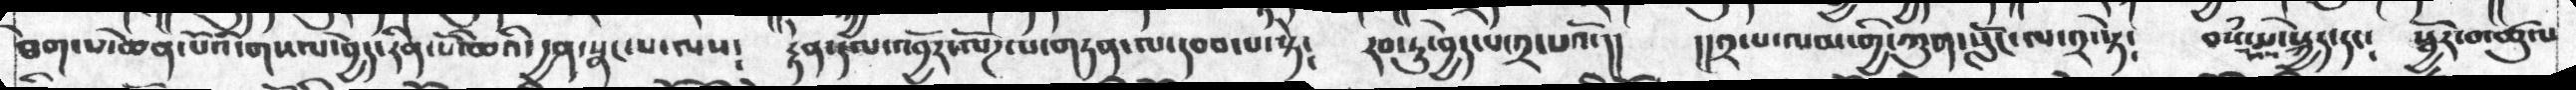ཐེག་པ་ཆེན་པོའི་གསལ་བྱེད་རིན་པོ་ཆེའི་དྱན་སྣང་པ་ལས༴   རྟེན་དལ་འབྱོར་ལོཌ་པ་གཏན་ལ་དབབ་པ་སྟེ༴   རབ་ཏུ་བྱེད་པ་༢་པའོ་།།   །།༢་པ་ལམ་གྱི་ཀུན་སློང་ལ་༢་སྟེ༴    བསཾ་པ་སྐྱེད་དང༴  སྦྱོར་བ་ཚུལ
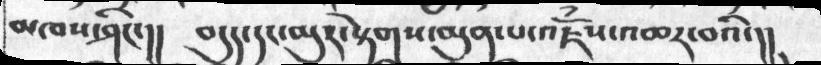མཁས་ཤིང་།།    བདུད་དང་མུར་སྟེགས་མུན་པ་འཇོས་འཆར་བའི་།།
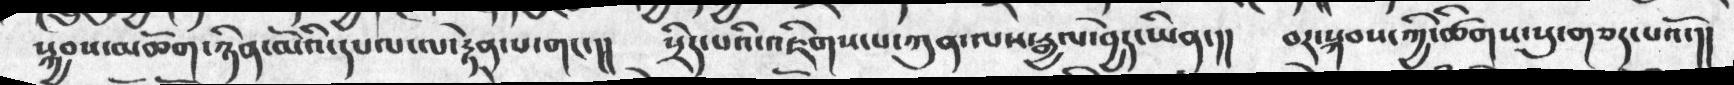སྐྱབས་མཆོག་ཉིན་མོའི་དཔལ་ལ་རྟེན་པ་གང་།།     སྲིད་པའི་འཇིགས་པ་ཀུན་ལས་རྒྱལ་བྱེད་ཡིན་།།    བར་སྐབས་ཀྱི་ཚིགས་སུ་གཅད་པའོ་།།
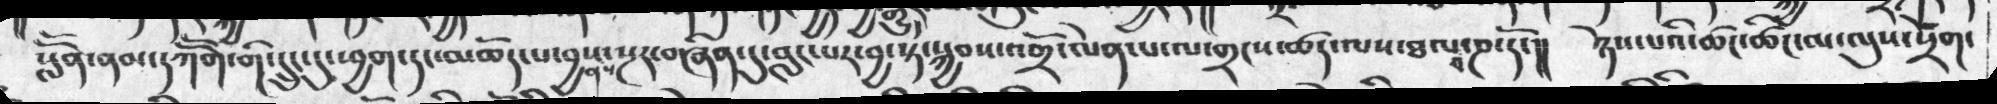སློོན་ནམ་དཀོོག་གི་དྲུང་དུ་ཕྱག་དང་མཆོད་པ་བྱས་ནས་སྔར་བཞིན་དུ་བླང་པར་བྱ་སྟེ་སྐྱབས་འགྲོ་ལེན་པ་ལ་གྲངས་ཚད་ལས་ཐལ་བ་ཎ་དོ་།།  ཉེས་པའི་ཚང་ཚང་མ་ལུས་སྲོག་
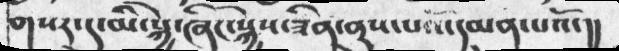གསར་དུ་མི་སྐྱེ་ཞིང་སྐྱེས་ཟིན་ནུས་པའོ་དམན་པའོ་།།
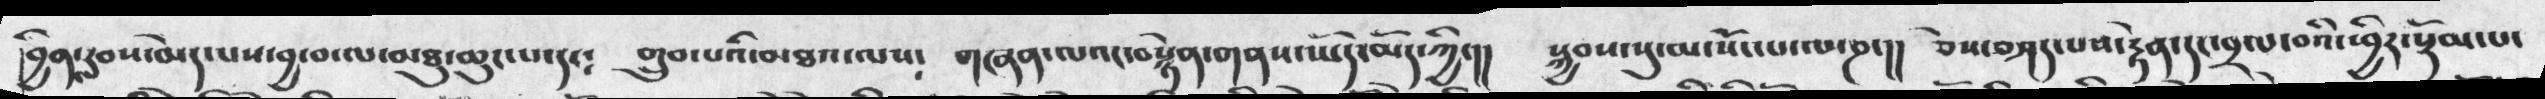།བྱིན་རླབས་མེད་པས་བྱ་བ་ལ་མཐུ་ཆུང་པ་དང༴  གྲུབ་པའི་མཐའ་ལས༴  གཞན་ལའང་བསྙེན་གནས་ཡོད་མོད་ཀྱི་།།  སྐྱབས་སུ་མ་སོངཔ་ལ་ཎ་།།  ཅེས་བཤད་པས་རྟེན་དང་བྲལ་བའི་ཕྱིར་སྡོམ་པ་
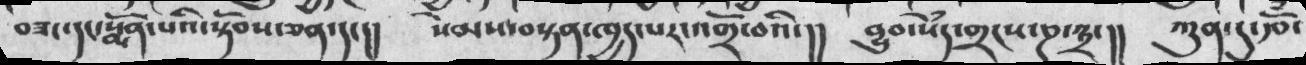བཟང་དང་སྨོན་པའི་སྟོབས་ཅན་དང།།  སེམས་བསྟན་ཁྱད་པར་འགྲོ་བའི་།།  བྱུབ་སེཾད་གྲངས་ཎ་༣་།།  ཀུན་དུ་རྩོ་
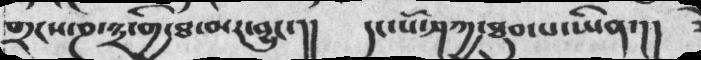གྲངས་ཎ་༣་གྱི་ཐ་མར་བྱུང་།།  དང་པོ་ཤཀྱ་ཐུབ་པ་ཡིན་།།
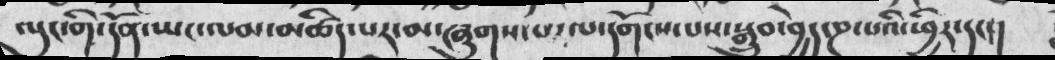ལུང་གི་དོན་ཡང་ལམ་མཚིད་པར་མ་ཞུགས་པ་ལ་དགོངས་པས་སྒྲུབ་བྱེད་ཎ་པའི་ཕྱིར་དང་།
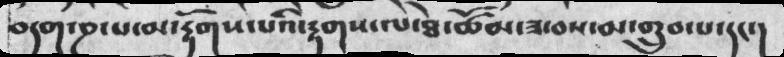བདག་ཎ་པ་མ་རྟོག་པའི་རྟགས་ལ་ཐེ་ཚོམ་ཟ་བས་མ་གྲུབ་པ་དང་།
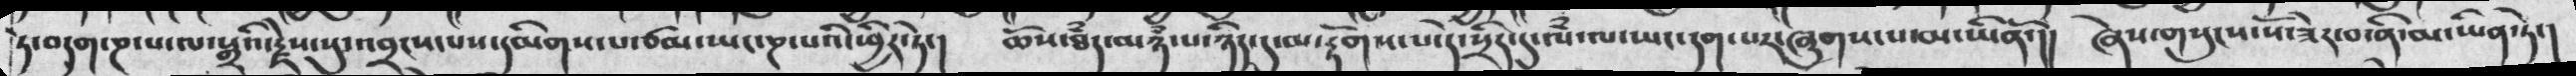དེ་བདག་ཎ་པ་ལ་སྒྲའི་རྗེས་སུ་འབྲངས་པས་དམིགས་པ་ཙམ་ཡང་ཎ་པའི་ཕྱིར་ཏེ་།  ཆོས་ཐཾད་མཉཾ་པ་ཉིད་དུ་མ་རྟོགས་པ་དེ་སྲིད་དུ་ལཾ་ལ་ཡང་དག་པར་ཞུགས་པ་མ་ཡིནོ་།།  ཞེས་གསུངས་སོ་ཟེར་བ་ནི་མ་ཡིན་ཏེ་།
